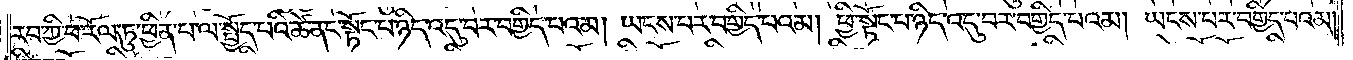རབ་ཀྱི་ཕ་རོལ་ཏུ་ཕྱིན་པ་ལ་སྤྱོད་པའི་ཚེ་ནང་སྟོང་པ་ཉིད་འདུ་བར་བགྱིད་པའམ། ཡངས་པར་བགྱིད་པའམ། ཕྱི་སྟོང་པ་ཉིད་འདུ་བར་བགྱིད་པའམ། ཡངས་པར་བགྱིད་པའམ།
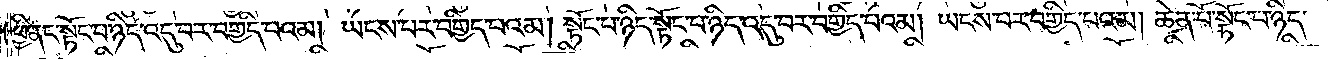ཕྱི་ནང་སྟོང་པ་ཉིད་འདུ་བར་བགྱིད་པའམ། ཡངས་པར་བགྱིད་པའམ། སྟོང་པ་ཉིད་སྟོང་པ་ཉིད་འདུ་བར་བགྱིད་པའམ། ཡངས་པར་བགྱིད་པའམ། ཆེན་པོ་སྟོང་པ་ཉིད་
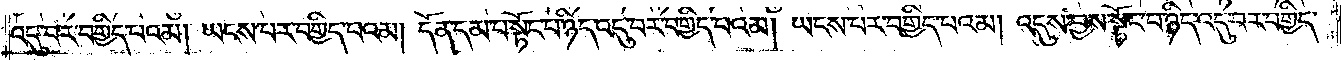འདུ་བར་བགྱིད་པའམ། ཡངས་པར་བགྱིད་པའམ། དོན་དམ་པ་སྟོང་པ་ཉིད་འདུ་བར་བགྱིད་པའམ། ཡངས་པར་བགྱིད་པའམ། འདུས་བྱས་སྟོང་པ་ཉིད་འདུ་བར་བགྱིད་
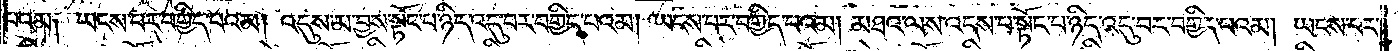པའམ༑ ཡངས་པར་བགྱིད་པའམ། འདུས་མ་བྱས་སྟོང་པ་ཉིད་འདུ་བར་བགྱིད་པའམ། ཡངས་པར་བགྱིད་པའམ། མཐའ་ལས་འདས་པ་སྟོང་པ་ཉིད་འདུ་བར་བགྱིད་པའམ། ཡངས་པར་
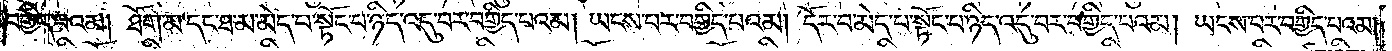བགྱིད་པའམ། ཐོག་མ་དང་ཐ་མ་མེད་པ་སྟོང་པ་ཉིད་འདུ་བར་བགྱིད་པའམ། ཡངས་པར་བགྱིད་པའམ། དོར་བ་མེད་པ་སྟོང་པ་ཉིད་འདུ་བར་བགྱིད་པའམ། ཡངས་པར་བགྱིད་པའམ།
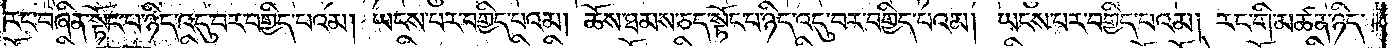རང་བཞིན་སྟོང་པ་ཉིད་འདུ་བར་བགྱིད་པའམ། ཡངས་པར་བགྱིད་པའམ། ཆོས་ཐམས་ཅད་སྟོང་པ་ཉིད་འདུ་བར་བགྱིད་པའམ། ཡངས་པར་བགྱིད་པའམ། རང་གི་མཚན་ཉིད་
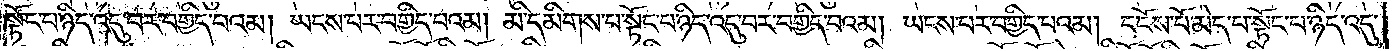སྟོང་པ་ཉིད་འདུ་བར་བགྱིད་པའམ། ཡངས་པར་བགྱིད་པའམ། མི་དམིགས་པ་སྟོང་པ་ཉིད་འདུ་བར་བགྱིད་པའམ། ཡངས་པར་བགྱིད་པའམ། དངོས་པོ་མེད་པ་སྟོང་པ་ཉིད་འདུ་
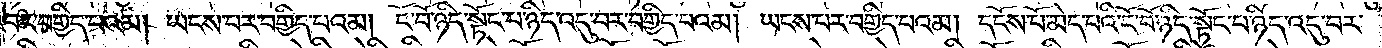བར་བགྱིད་པའམ། ཡངས་པར་བགྱིད་པའམ། ངོ་བོ་ཉིད་སྟོང་པ་ཉིད་འདུ་བར་བགྱིད་པའམ། ཡངས་པར་བགྱིད་པའམ། དངོས་པོ་མེད་པའི་ངོ་བོ་ཉིད་སྟོང་པ་ཉིད་འདུ་བར་
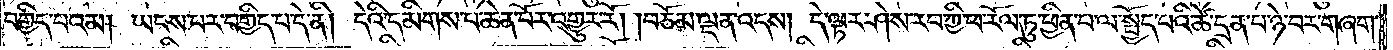བགྱིད་པའམ། ཡངས་པར་བགྱིད་པ་དེ་ནི། དེའི་དམིགས་པ་ཆེན་པོར་འགྱུར་རོ། །བཅོམ་ལྡན་འདས། དེ་ལྟར་ཤེས་རབ་ཀྱི་ཕ་རོལ་ཏུ་ཕྱིན་པ་ལ་སྤྱོད་པའི་ཚེ་དྲན་པ་ཉེ་བར་གཞག་
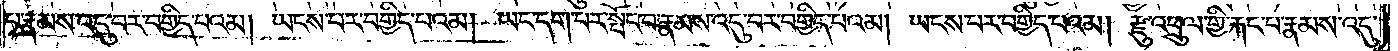པ་རྣམས་འདུ་བར་བགྱིད་པའམ། ཡངས་པར་བགྱིད་པའམ། ཡང་དག་པར་སྤོང་བ་རྣམས་འདུ་བར་བགྱིད་པའམ། ཡངས་པར་བགྱིད་པའམ། རྫུ་འཕྲུལ་གྱི་རྐང་པ་རྣམས་འདུ་
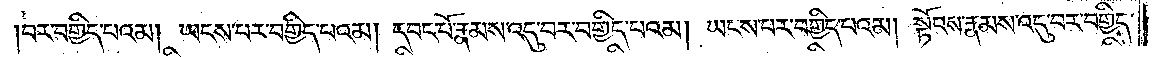བར་བགྱིད་པའམ། ཡངས་པར་བགྱིད་པའམ། དབང་པོ་རྣམས་འདུ་བར་བགྱིད་པའམ། ཡངས་པར་བགྱིད་པའམ། སྟོབས་རྣམས་འདུ་བར་བགྱིད་
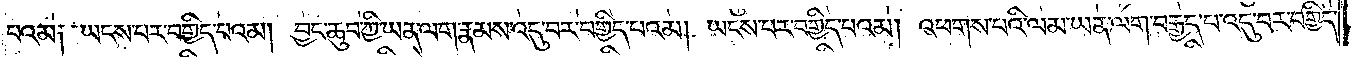པའམ༑ ཡངས་པར་བགྱིད་པའམ། བྱང་ཆུབ་ཀྱི་ཡན་ལག་རྣམས་འདུ་བར་བགྱིད་པའམ། ཡངས་པར་བགྱིད་པའམ། འཕགས་པའི་ལམ་ཡན་ལག་བརྒྱད་པ་འདུ་བར་བགྱིད་
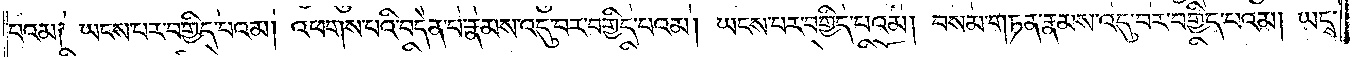པའམ༑ ཡངས་པར་བགྱིད་པའམ། འཕགས་པའི་བདེན་པ་རྣམས་འདུ་བར་བགྱིད་པའམ། ཡངས་པར་བགྱིད་པའམ། བསམ་གཏན་རྣམས་འདུ་བར་བགྱིད་པའམ། ཡངས་
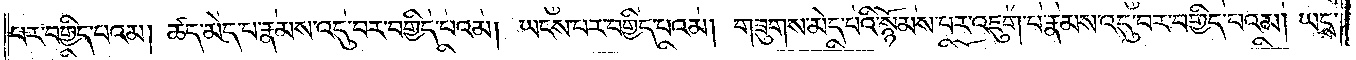པར་བགྱིད་པའམ། ཚད་མེད་པ་རྣམས་འདུ་བར་བགྱིད་པའམ། ཡངས་པར་བགྱིད་པའམ། གཟུགས་མེད་པའི་སྙོམས་པར་འཇུག་པ་རྣམས་འདུ་བར་བགྱིད་པའམ། ཡངས་
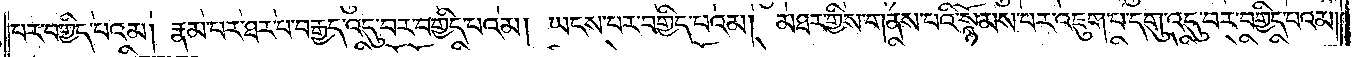པར་བགྱིད་པའམ། རྣམ་པར་ཐར་པ་བརྒྱད་འདུ་བར་བགྱིད་པའམ། ཡངས་པར་བགྱིད་པའམ། མཐར་གྱིས་གནས་པའི་སྙོམས་པར་འཇུག་པ་དགུ་འདུ་བར་བགྱིད་པའམ།
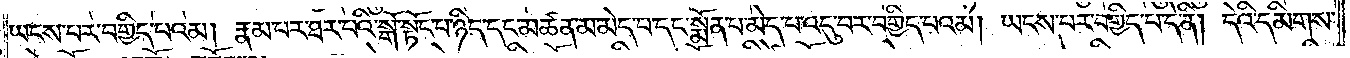ཡངས་པར་བགྱིད་པའམ། རྣམ་པར་ཐར་པའི་སྒོ་སྟོང་པ་ཉིད་དང་མཚན་མ་མེད་པ་དང་སྨོན་པ་མེད་པ་འདུ་བར་བགྱིད་པའམ། ཡངས་པར་བགྱིད་པ་དེ་ནི། དེའི་དམིགས་
